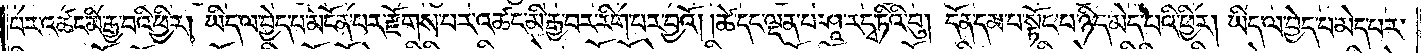པར་འཚང་མི་རྒྱ་བའི་ཕྱིར། ཡིད་ལ་བྱེད་པ་མངོན་པར་རྫོགས་པར་འཚང་མི་རྒྱ་བར་རིག་པར་བྱའོ། །ཚེ་དང་ལྡན་པ་ཤཱ་ར་དྭ་ཏིའི་བུ། དོན་དམ་པ་སྟོང་པ་ཉིད་མེད་པའི་ཕྱིར། ཡིད་ལ་བྱེད་པ་མེད་པར་
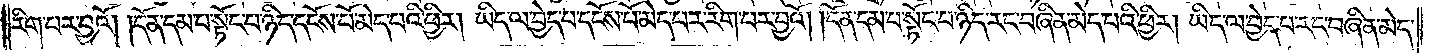རིག་པར་བྱའོ། །དོན་དམ་པ་སྟོང་པ་ཉིད་དངོས་པོ་མེད་པའི་ཕྱིར། ཡིད་ལ་བྱེད་པ་དངོས་པོ་མེད་པར་རིག་པར་བྱའོ། །དོན་དམ་པ་སྟོང་པ་ཉིད་རང་བཞིན་མེད་པའི་ཕྱིར། ཡིད་ལ་བྱེད་པ་རང་བཞིན་མེད་
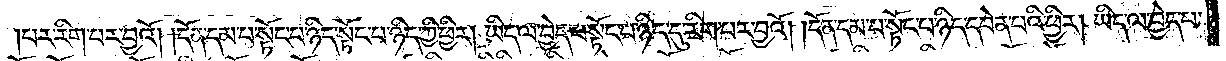པར་རིག་པར་བྱའོ། །དོན་དམ་པ་སྟོང་པ་ཉིད་སྟོང་པ་ཉིད་ཀྱི་ཕྱིར། ཡིད་ལ་བྱེད་པ་སྟོང་པ་ཉིད་དུ་རིག་པར་བྱའོ། །དོན་དམ་པ་སྟོང་པ་ཉིད་དབེན་པའི་ཕྱིར། ཡིད་ལ་བྱེད་པ་
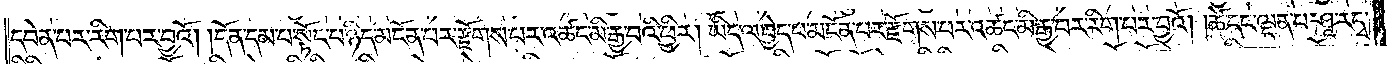དབེན་པར་རིག་པར་བྱའོ། །དོན་དམ་པ་སྟོང་པ་ཉིད་མངོན་པར་རྫོགས་པར་འཚང་མི་རྒྱ་བའི་ཕྱིར། ཡིད་ལ་བྱེད་པ་མངོན་པར་རྫོགས་པར་འཚང་མི་རྒྱ་བར་རིག་པར་བྱའོ། །ཚེ་དང་ལྡན་པ་ཤཱ་ར་དྭ་
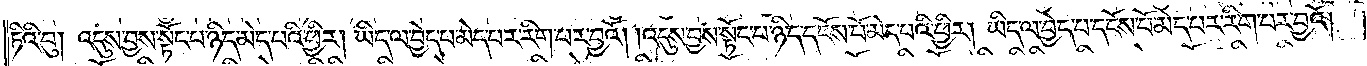ཏིའི་བུ། འདུས་བྱས་སྟོང་པ་ཉིད་མེད་པའི་ཕྱིར། ཡིད་ལ་བྱེད་པ་མེད་པར་རིག་པར་བྱའོ། །འདུས་བྱས་སྟོང་པ་ཉིད་དངོས་པོ་མེད་པའི་ཕྱིར། ཡིད་ལ་བྱེད་པ་དངོས་པོ་མེད་པར་རིག་པར་བྱའོ། །
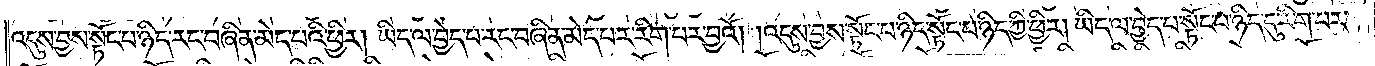འདུས་བྱས་སྟོང་པ་ཉིད་རང་བཞིན་མེད་པའི་ཕྱིར། ཡིད་ལ་བྱེད་པ་རང་བཞིན་མེད་པར་རིག་པར་བྱའོ། །འདུས་བྱས་སྟོང་པ་ཉིད་སྟོང་པ་ཉིད་ཀྱི་ཕྱིར། ཡིད་ལ་བྱེད་པ་སྟོང་པ་ཉིད་དུ་རིག་པར་
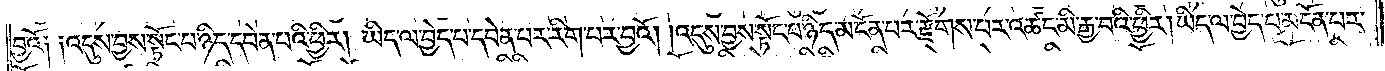བྱའོ༏ ༏འདུས་བྱས་སྟོང་པ་ཉིད་དབེན་པའི་ཕྱིར། །ཡིད་ལ་བྱེད་པ་དབེན་པར་རིག་པར་བྱའོ། །འདུས་བྱས་སྟོང་པ་ཉིད་མངོན་པར་རྫོགས་པར་འཚང་མི་རྒྱ་བའི་ཕྱིར། ཡིད་ལ་བྱེད་པ་མངོན་པར་
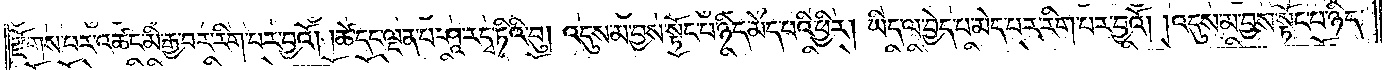རྫོགས་པར་འཚང་མི་རྒྱ་བར་རིག་པར་བྱའོ། །ཚེ་དང་ལྡན་པ་ཤཱ་ར་དྭ་ཏིའི་བུ། འདུས་མ་བྱས་སྟོང་པ་ཉིད་མེད་པའི་ཕྱིར། ཡིད་ལ་བྱེད་པ་མེད་པར་རིག་པར་བྱའོ། །འདུས་མ་བྱས་སྟོང་པ་ཉིད་
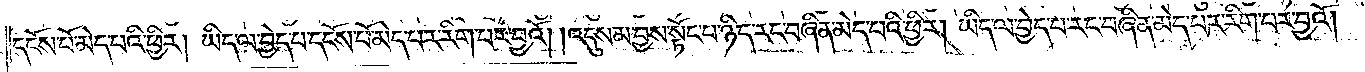དངོས་པོ་མེད་པའི་ཕྱིར། ཡིད་ལ་བྱེད་པ་དངོས་པོ་མེད་པར་རིག་པར་བྱའོ། །འདུས་མ་བྱས་སྟོང་པ་ཉིད་རང་བཞིན་མེད་པའི་ཕྱིར། ཡིད་ལ་བྱེད་པ་རང་བཞིན་མེད་པར་རིག་པར་བྱའོ། །
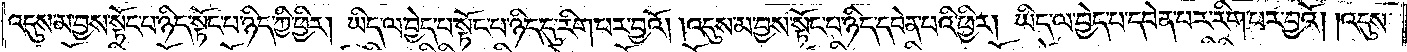འདུས་མ་བྱས་སྟོང་པ་ཉིད་སྟོང་པ་ཉིད་ཀྱི་ཕྱིར། ཡིད་ལ་བྱེད་པ་སྟོང་པ་ཉིད་དུ་རིག་པར་བྱའོ། །འདུས་མ་བྱས་སྟོང་པ་ཉིད་དབེན་པའི་ཕྱིར། ཡིད་ལ་བྱེད་པ་དབེན་པར་རིག་པར་བྱའོ། །འདུས་
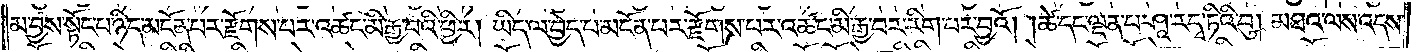མ་བྱས་སྟོང་པ་ཉིད་མངོན་པར་རྫོགས་པར་འཚང་མི་རྒྱ་བའི་ཕྱིར། ཡིད་ལ་བྱེད་པ་མངོན་པར་རྫོགས་པར་འཚང་མི་རྒྱ་བར་རིག་པར་བྱའོ། །ཚེ་དང་ལྡན་པ་ཤཱ་ར་དྭ་ཏིའི་བུ། མཐའ་ལས་འདས་
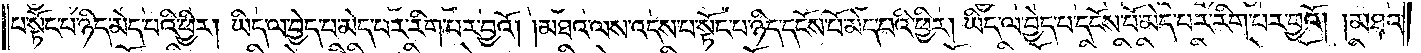པ་སྟོང་པ་ཉིད་མེད་པའི་ཕྱིར། ཡིད་ལ་བྱེད་པ་མེད་པར་རིག་པར་བྱའོ། །མཐའ་ལས་འདས་པ་སྟོང་པ་ཉིད་དངོས་པོ་མེད་པའི་ཕྱིར། ཡིད་ལ་བྱེད་པ་དངོས་པོ་མེད་པར་རིག་པར་བྱའོ། །མཐའ་
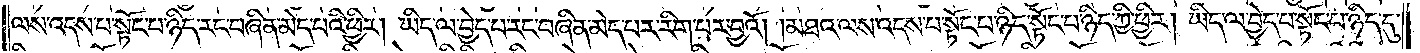ལས་འདས་པ་སྟོང་པ་ཉིད་རང་བཞིན་མེད་པའི་ཕྱིར། ཡིད་ལ་བྱེད་པ་རང་བཞིན་མེད་པར་རིག་པར་བྱའོ། །མཐའ་ལས་འདས་པ་སྟོང་པ་ཉིད་སྟོང་པ་ཉིད་ཀྱི་ཕྱིར། ཡིད་ལ་བྱེད་པ་སྟོང་པ་ཉིད་དུ་
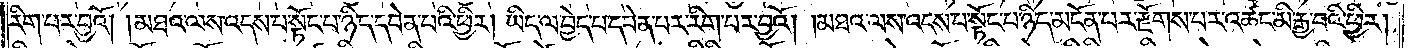རིག་པར་བྱའོ། །མཐའ་ལས་འདས་པ་སྟོང་པ་ཉིད་དབེན་པའི་ཕྱིར། ཡིད་ལ་བྱེད་པ་དབེན་པར་རིག་པར་བྱའོ། །མཐའ་ལས་འདས་པ་སྟོང་པ་ཉིད་མངོན་པར་རྫོགས་པར་འཚང་མི་རྒྱ་བའི་ཕྱིར།
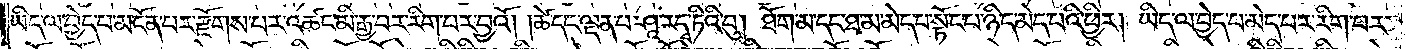ཡིད་ལ་བྱེད་པ་མངོན་པར་རྫོགས་པར་འཚང་མི་རྒྱ་བར་རིག་པར་བྱའོ། །ཚེ་དང་ལྡན་པ་ཤཱ་ར་དྭ་ཏིའི་བུ། ཐོག་མ་དང་ཐ་མ་མེད་པ་སྟོང་པ་ཉིད་མེད་པའི་ཕྱིར། ཡིད་ལ་བྱེད་པ་མེད་པར་རིག་པར་
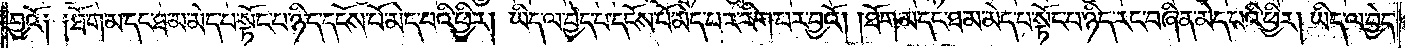བྱའོ༏ ༏ཐོག་མ་དང་ཐ་མ་མེད་པ་སྟོང་པ་ཉིད་དངོས་པོ་མེད་པའི་ཕྱིར། ཡིད་ལ་བྱེད་པ་དངོས་པོ་མེད་པར་རིག་པར་བྱའོ། །ཐོག་མ་དང་ཐ་མ་མེད་པ་སྟོང་པ་ཉིད་རང་བཞིན་མེད་པའི་ཕྱིར། ཡིད་ལ་བྱེད་
